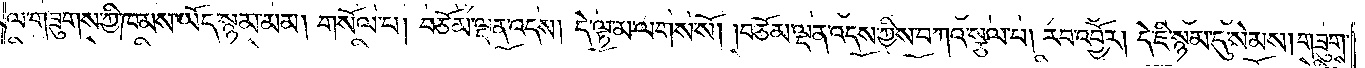ལ་གཟུགས་ཀྱི་ཁམས་ཡོད་སྙམ་མམ། གསོལ་པ། བཅོམ་ལྡན་འདས། དེ་ལྟ་མ་ལགས་སོ། །བཅོམ་ལྡན་འདས་ཀྱིས་བཀའ་སྩལ་པ། རབ་འབྱོར། དེ་ཇི་སྙམ་དུ་སེམས། གཟུགས་
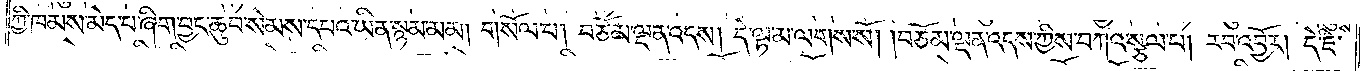ཀྱི་ཁམས་མེད་པ་ཞིག་བྱང་ཆུབ་སེམས་དཔའ་ཡིན་སྙམ་མམ། གསོལ་པ། བཅོམ་ལྡན་འདས། དེ་ལྟ་མ་ལགས་སོ། །བཅོམ་ལྡན་འདས་ཀྱིས་བཀའ་སྩལ་པ། རབ་འབྱོར། དེ་ཇི་
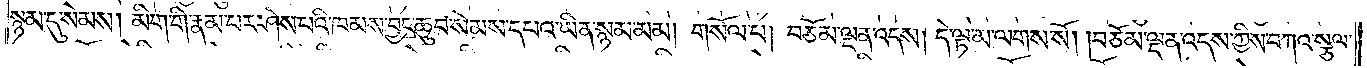སྙམ་དུ་སེམས། མིག་གི་རྣམ་པར་ཤེས་པའི་ཁམས་བྱང་ཆུབ་སེམས་དཔའ་ཡིན་སྙམ་མམ། གསོལ་པ། བཅོམ་ལྡན་འདས། དེ་ལྟ་མ་ལགས་སོ། །བཅོམ་ལྡན་འདས་ཀྱིས་བཀའ་སྩལ་
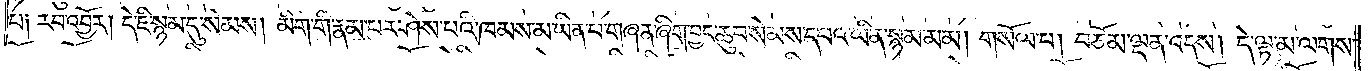པ༑ རབ་འབྱོར། དེ་ཇི་སྙམ་དུ་སེམས། མིག་གི་རྣམ་པར་ཤེས་པའི་ཁམས་མ་ཡིན་པ་གཞན་ཞིག་བྱང་ཆུབ་སེམས་དཔའ་ཡིན་སྙམ་མམ། གསོལ་པ། བཅོམ་ལྡན་འདས། དེ་ལྟ་མ་ལགས་
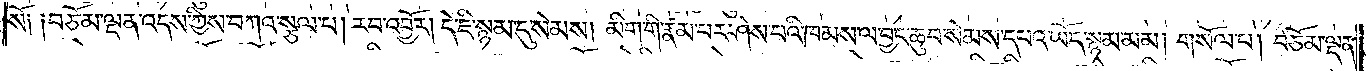སོ༑ ༑བཅོམ་ལྡན་འདས་ཀྱིས་བཀའ་སྩལ་པ། རབ་འབྱོར། དེ་ཇི་སྙམ་དུ་སེམས། མིག་གི་རྣམ་པར་ཤེས་པའི་ཁམས་ལ་བྱང་ཆུབ་སེམས་དཔའ་ཡོད་སྙམ་མམ། གསོལ་པ། བཅོམ་ལྡན་
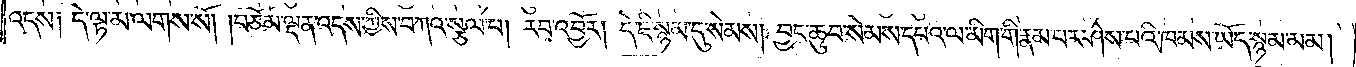འདས༑ དེ་ལྟ་མ་ལགས་སོ། །བཅོམ་ལྡན་འདས་ཀྱིས་བཀའ་སྩལ་པ། རབ་འབྱོར། དེ་ཇི་སྙམ་དུ་སེམས། བྱང་ཆུབ་སེམས་དཔའ་ལ་མིག་གི་རྣམ་པར་ཤེས་པའི་ཁམས་ཡོད་སྙམ་མམ།
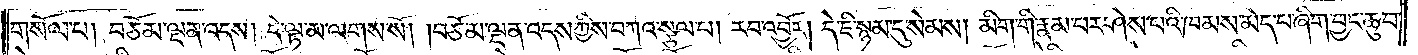གསོལ་པ། བཅོམ་ལྡན་འདས། དེ་ལྟ་མ་ལགས་སོ། །བཅོམ་ལྡན་འདས་ཀྱིས་བཀའ་སྩལ་པ། རབ་འབྱོར། དེ་ཇི་སྙམ་དུ་སེམས། མིག་གི་རྣམ་པར་ཤེས་པའི་ཁམས་མེད་པ་ཞིག་བྱང་ཆུབ་
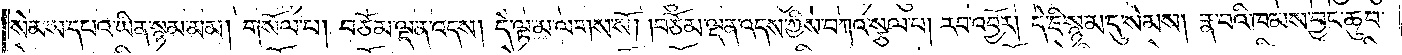སེམས་དཔའ་ཡིན་སྙམ་མམ། གསོལ་པ། བཅོམ་ལྡན་འདས། དེ་ལྟ་མ་ལགས་སོ། །བཅོམ་ལྡན་འདས་ཀྱིས་བཀའ་སྩལ་པ། རབ་འབྱོར། དེ་ཇི་སྙམ་དུ་སེམས། རྣ་བའི་ཁམས་བྱང་ཆུབ་
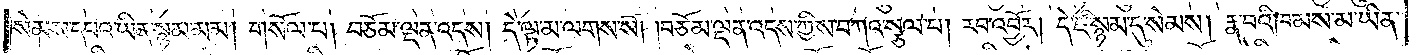སེམས་དཔའ་ཡིན་སྙམ་མམ། གསོལ་པ། བཅོམ་ལྡན་འདས། དེ་ལྟ་མ་ལགས་སོ། །བཅོམ་ལྡན་འདས་ཀྱིས་བཀའ་སྩལ་པ། རབ་འབྱོར། དེ་ཇི་སྙམ་དུ་སེམས། རྣ་བའི་ཁམས་མ་ཡིན་
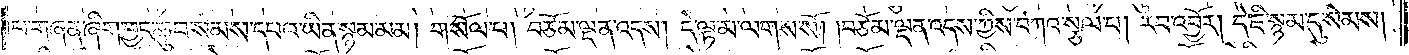པ་གཞན་ཞིག་བྱང་ཆུབ་སེམས་དཔའ་ཡིན་སྙམ་མམ། གསོལ་པ། བཅོམ་ལྡན་འདས། དེ་ལྟ་མ་ལགས་སོ། །བཅོམ་ལྡན་འདས་ཀྱིས་བཀའ་སྩལ་པ། རབ་འབྱོར། དེ་ཇི་སྙམ་དུ་སེམས།
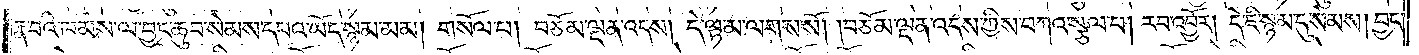རྣ་བའི་ཁམས་ལ་བྱང་ཆུབ་སེམས་དཔའ་ཡོད་སྙམ་མམ། གསོལ་པ། བཅོམ་ལྡན་འདས། དེ་ལྟ་མ་ལགས་སོ། །བཅོམ་ལྡན་འདས་ཀྱིས་བཀའ་སྩལ་པ། རབ་འབྱོར། དེ་ཇི་སྙམ་དུ་སེམས། བྱང་
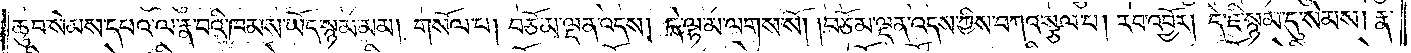ཆུབ་སེམས་དཔའ་ལ་རྣ་བའི་ཁམས་ཡོད་སྙམ་མམ། གསོལ་པ། བཅོམ་ལྡན་འདས། དེ་ལྟ་མ་ལགས་སོ། །བཅོམ་ལྡན་འདས་ཀྱིས་བཀའ་སྩལ་པ། རབ་འབྱོར། དེ་ཇི་སྙམ་དུ་སེམས། རྣ་
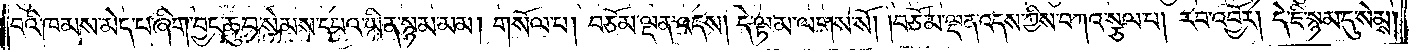བའི་ཁམས་མེད་པ་ཞིག་བྱང་ཆུབ་སེམས་དཔའ་ཡིན་སྙམ་མམ། གསོལ་པ། བཅོམ་ལྡན་འདས། དེ་ལྟ་མ་ལགས་སོ། །བཅོམ་ལྡན་འདས་ཀྱིས་བཀའ་སྩལ་པ། རབ་འབྱོར། དེ་ཇི་སྙམ་དུ་སེམས།
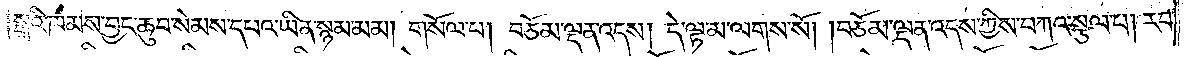སྒྲའི་ཁམས་བྱང་ཆུབ་སེམས་དཔའ་ཡིན་སྙམ་མམ། གསོལ་པ། བཅོམ་ལྡན་འདས། དེ་ལྟ་མ་ལགས་སོ། །བཅོམ་ལྡན་འདས་ཀྱིས་བཀའ་སྩལ་པ། རབ་
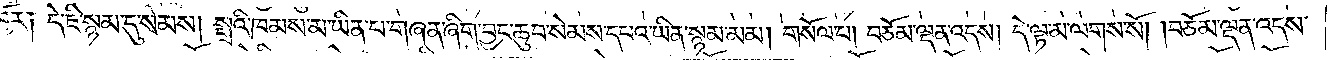འབྱོར༑ དེ་ཇི་སྙམ་དུ་སེམས། སྒྲའི་ཁམས་མ་ཡིན་པ་གཞན་ཞིག་བྱང་ཆུབ་སེམས་དཔའ་ཡིན་སྙམ་མམ། གསོལ་པ། བཅོམ་ལྡན་འདས། དེ་ལྟ་མ་ལགས་སོ། །བཅོམ་ལྡན་འདས་
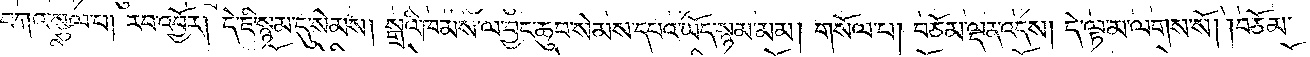ཀྱིས་བཀའ་སྩལ་པ། རབ་འབྱོར། དེ་ཇི་སྙམ་དུ་སེམས། སྒྲའི་ཁམས་ལ་བྱང་ཆུབ་སེམས་དཔའ་ཡོད་སྙམ་མམ། གསོལ་པ། བཅོམ་ལྡན་འདས། དེ་ལྟ་མ་ལགས་སོ། །བཅོམ་
